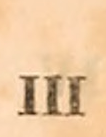III
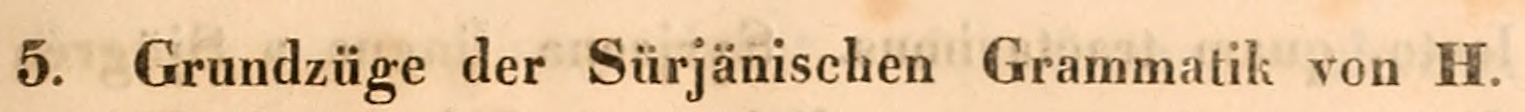5. Grundzüge der Sürjänischen Grammatik von H.
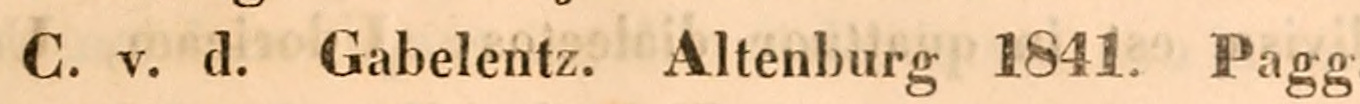C. v. d. Gabelentz. Altenburg 1841. Pagg
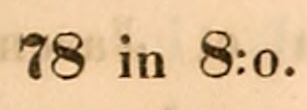78 in 8:o.
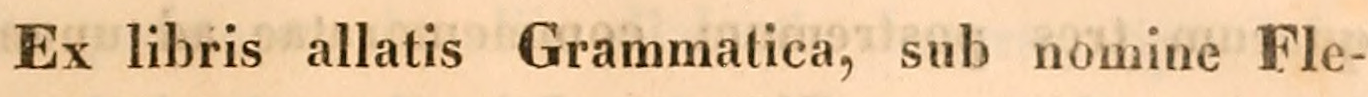Ex libris allatis Grammatica, sub nomine Fle-
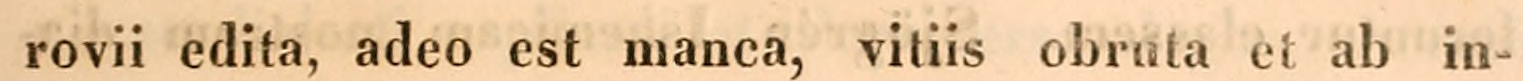rovii edita, adeo est manca, vitiis obruta et ab in-
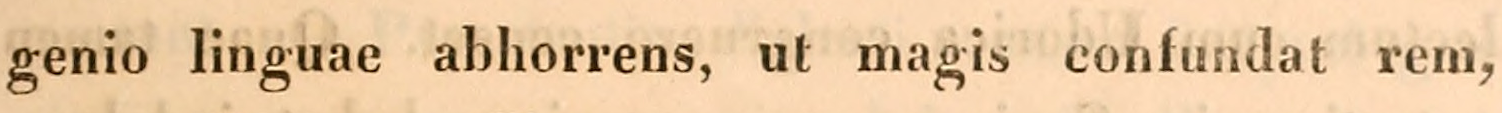genio linguae abhorrens, ut magis confundat rem,
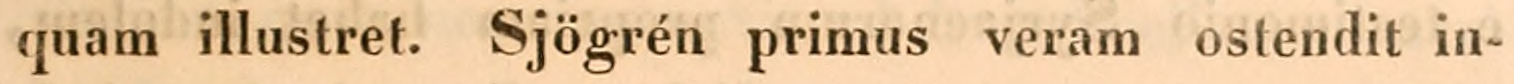quam illustret. Sjögrén primus veram ostendit in-
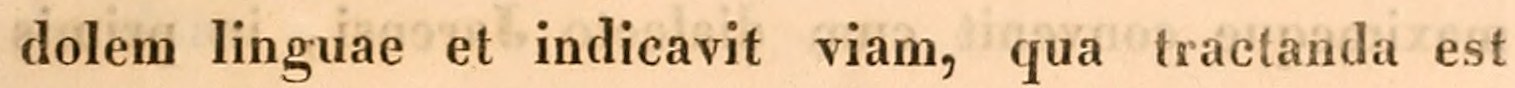dolem linguae et indicavit viam, qua tractanda est
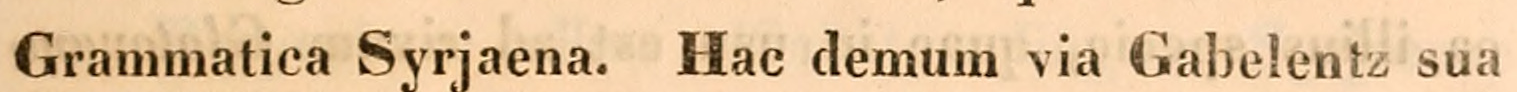Grammatica Syrjaena. Hac demum via Gabelentz sua
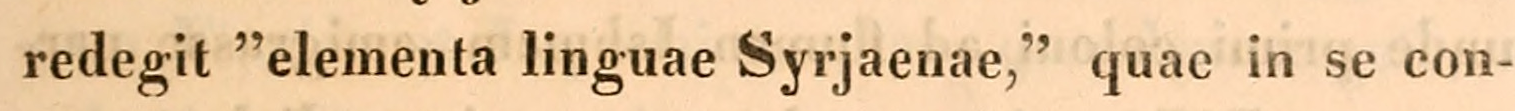redegit "elementa linguae Syrjaenae," quae in se con-
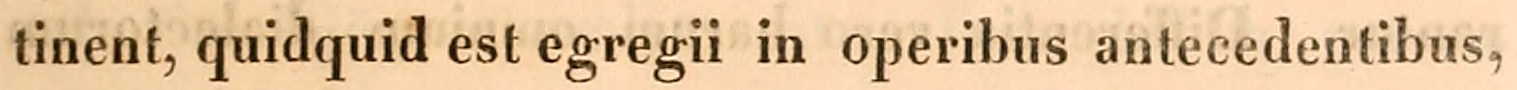tinent, quidquid est egregii in operibus antecedentibus,
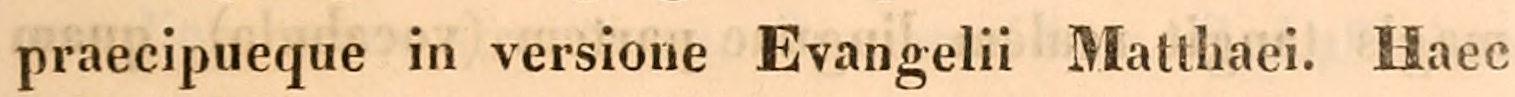praecipueque in versione Evangelii Matthaei. Haec
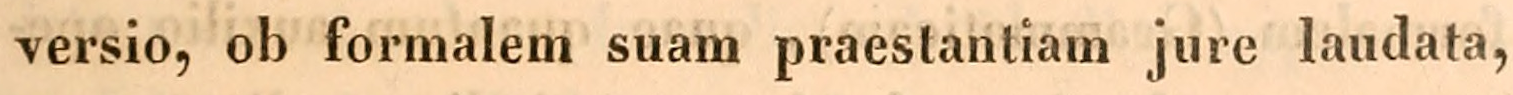versio, ob formalem suam praestantiam jure laudata,
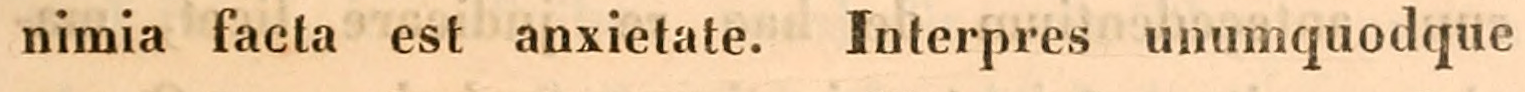nimia facta est anxietate. Interpres unumquodque
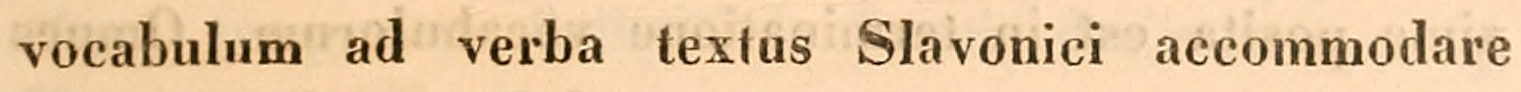vocabulum ad verba textus Slavonici accommodare
